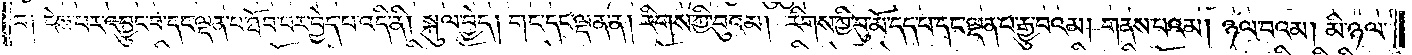བ༑ ངེས་པར་འབྱུང་བ་དང་ལྡན་པ་ཐོབ་པར་བྱེད་པ་འདི་ནི། སྐུལ་བྱེད། གང་དང་ལྡན་ན། རིགས་ཀྱི་བུའམ། རིགས་ཀྱི་བུ་མོ་དད་པ་དང་ལྡན་པ་རྒྱུ་བའམ། གནས་པའམ། ཉལ་བའམ། མི་ཉལ་
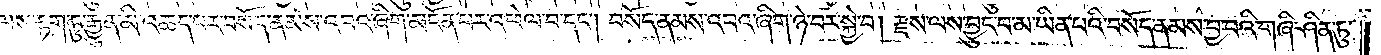ལས་རྟག་ཏུ་རྒྱུན་མི་འཆད་པར་བསོད་ནམས་འབའ་ཞིག་མངོན་པར་འཕེལ་བ་དང༌། བསོད་ནམས་འབའ་ཞིག་ཉེ་བར་སྐྱེ་བ། རྫས་ལས་བྱུང་བ་མ་ཡིན་པའི་བསོད་ནམས་བྱ་བའི་གཞི་ཤིན་ཏུ་
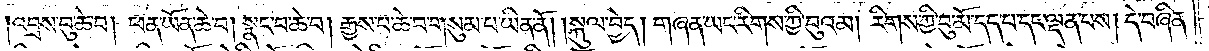།འབྲས་བུ་ཆེ་བ། ཕན་ཡོན་ཆེ་བ། སྣང་བ་ཆེ་བ། རྒྱས་པ་ཆེ་བ་གསུམ་པ་ཡིན་ནོ། །སྐུལ་བྱེད། གཞན་ཡང་རིགས་ཀྱི་བུའམ། རིགས་ཀྱི་བུ་མོ་དད་པ་དང་ལྡན་པས། དེ་བཞིན་
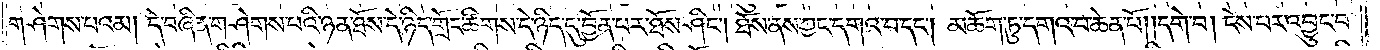གཤེགས་པའམ། དེ་བཞིན་གཤེགས་པའི་ཉན་ཐོས་དེ་ཉིད་གྲོང་ཚིགས་དེ་ཉིད་དུ་བྱོན་པར་ཐོས་ཤིང༌། ཐོས་ནས་ཀྱང་དགའ་བ་དང༌། མཆོག་ཏུ་དགའ་བ་ཆེན་པོ། །དགེ་བ། ངེས་པར་འབྱུང་བ་
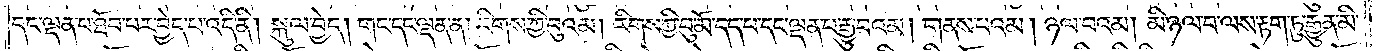དང་ལྡན་པ་ཐོབ་པར་བྱེད་པ་འདི་ནི། སྐུལ་བྱེད། གང་དང་ལྡན་ན། རིགས་ཀྱི་བུའམ། རིགས་ཀྱི་བུ་མོ་དད་པ་དང་ལྡན་པ་རྒྱུ་བའམ། གནས་པའམ། ཉལ་བའམ། མི་ཉལ་བ་ལས་རྟག་ཏུ་རྒྱུན་མི་
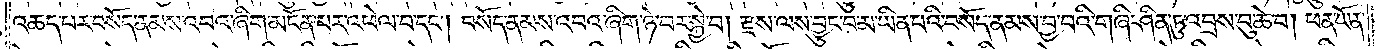འཆད་པར་བསོད་ནམས་འབའ་ཞིག་མངོན་པར་འཕེལ་བ་དང༌། བསོད་ནམས་འབའ་ཞིག་ཉེ་བར་སྐྱེ་བ། རྫས་ལས་བྱུང་བ་མ་ཡིན་པའི་བསོད་ནམས་བྱ་བའི་གཞི་ཤིན་ཏུ་འབྲས་བུ་ཆེ་བ། ཕན་ཡོན་
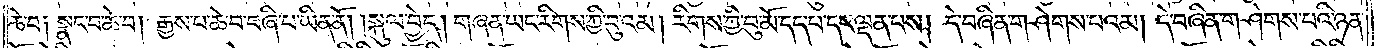ཆེ་བ། སྣང་བ་ཆེ་བ། རྒྱས་པ་ཆེ་བ་བཞི་པ་ཡིན་ནོ། །སྐུལ་བྱེད། གཞན་ཡང་རིགས་ཀྱི་བུའམ། རིགས་ཀྱི་བུ་མོ་དད་པ་དང་ལྡན་པས། དེ་བཞིན་གཤེགས་པའམ། དེ་བཞིན་གཤེགས་པའི་ཉན་
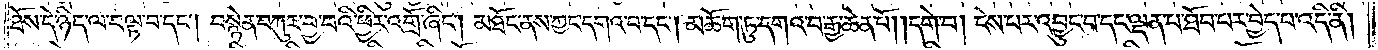ཐོས་དེ་ཉིད་ལ་བལྟ་བ་དང༌། བསྙེན་བཀུར་བྱ་བའི་ཕྱིར་འགྲོ་ཞིང༌། མཐོང་ནས་ཀྱང་དགའ་བ་དང༌། མཆོག་ཏུ་དགའ་བ་རྒྱ་ཆེན་པོ། །དགེ་བ། ངེས་པར་འབྱུང་བ་དང་ལྡན་པ་ཐོབ་པར་བྱེད་པ་འདི་ནི།
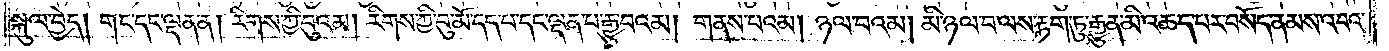སྐུལ་བྱེད། གང་དང་ལྡན་ན། རིགས་ཀྱི་བུའམ། རིགས་ཀྱི་བུ་མོ་དད་པ་དང་ལྡན་པ་རྒྱུ་བའམ། གནས་པའམ། ཉལ་བའམ། མི་ཉལ་བ་ལས་རྟག་ཏུ་རྒྱུན་མི་འཆད་པར་བསོད་ནམས་འབའ་
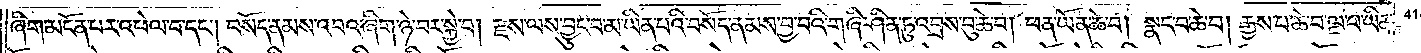ཞིག་མངོན་པར་འཕེལ་བ་དང༌། བསོད་ནམས་འབའ་ཞིག་ཉེ་བར་སྐྱེ་བ། རྫས་ལས་བྱུང་བ་མ་ཡིན་པའི་བསོད་ནམས་བྱ་བའི་གཞི་ཤིན་ཏུ་འབྲས་བུ་ཆེ་བ། ཕན་ཡོན་ཆེ་བ། སྣང་བ་ཆེ་བ། རྒྱས་པ་ཆེ་བ་ལྔ་པ་ཡིན་
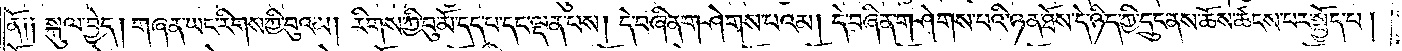ནོ༑༑སྐུལ་བྱེད། གཞན་ཡང་རིགས་ཀྱི་བུའམ། རིགས་ཀྱི་བུ་མོ་དད་པ་དང་ལྡན་པས། དེ་བཞིན་གཤེགས་པའམ། དེ་བཞིན་གཤེགས་པའི་ཉན་ཐོས་དེ་ཉིད་ཀྱི་དྲུང་ནས་ཆོས་ཚངས་པར་སྤྱོད་པ།
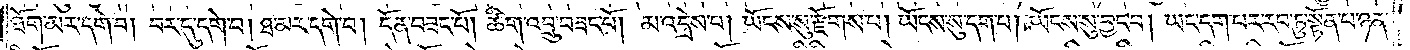ཐོག་མར་དགེ་བ། བར་དུ་དགེ་བ། ཐ་མར་དགེ་བ། དོན་བཟང་པོ། ཚིག་འབྲུ་བཟང་པོ། མ་འདྲེས་པ། ཡོངས་སུ་རྫོགས་པ། ཡོངས་སུ་དག་པ། ཡོངས་སུ་བྱང་བ། ཡང་དག་པར་རབ་ཏུ་སྟོན་པ་ཉན་
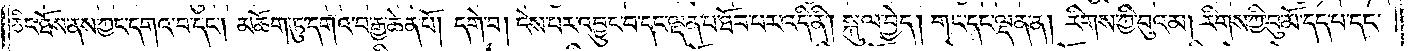ཅིང་ཐོས་ནས་ཀྱང་དགའ་བ་དང༌། མཆོག་ཏུ་དགའ་བ་རྒྱ་ཆེན་པོ། དགེ་བ། ངེས་པར་འབྱུང་བ་དང་ལྡན་པ་ཐོབ་པར་འདི་ནི། སྐུལ་བྱེད། གང་དང་ལྡན་ན། རིགས་ཀྱི་བུའམ། རིགས་ཀྱི་བུ་མོ་དད་པ་དང་
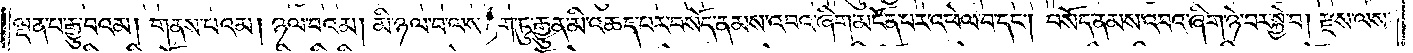ལྡན་པ་རྒྱུ་བའམ། གནས་པའམ། ཉལ་བའམ། མི་ཉལ་བ་ལས་རྟག་ཏུ་རྒྱུན་མི་འཆད་པར་བསོད་ནམས་འབའ་ཞིག་མངོན་པར་འཕེལ་བ་དང༌། བསོད་ནམས་འབའ་ཞིག་ཉེ་བར་སྐྱེ་བ། རྫས་ལས་
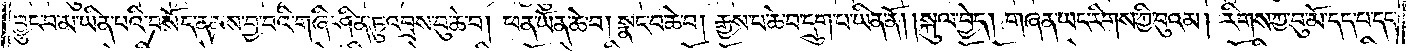བྱུང་བ་མ་ཡིན་པའི་བསོད་ནམས་བྱ་བའི་གཞི་ཤིན་ཏུ་འབྲས་བུ་ཆེ་བ། ཕན་ཡོན་ཆེ་བ། སྣང་བ་ཆེ་བ། རྒྱས་པ་ཆེ་བ་དྲུག་པ་ཡིན་ནོ། །སྐུལ་བྱེད། གཞན་ཡང་རིགས་ཀྱི་བུའམ། རིགས་ཀྱང་བུ་མོ་དད་པ་དང་
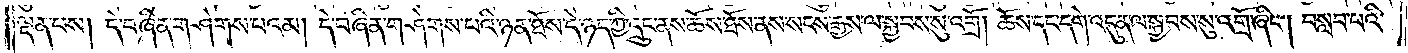ལྡན་པས། དེ་བཞིན་གཤེགས་པའམ། དེ་བཞིན་གཤེགས་པའི་ཉན་ཐོས་དེ་ཉད་ཀྱི་དྲུང་ནས་ཆོས་ཐོས་ནས་སངས་རྒྱས་ལ་སྐྱབས་སུ་འགྲོ། ཆོས་དང་དགེ་འདུན་ལ་སྐྱབས་སུ་འགྲོ་ཞིང༌། བསླབ་བའི་
